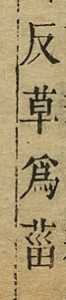反草為菑
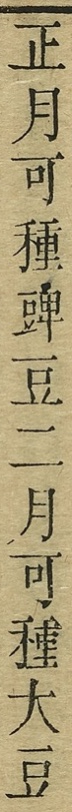正月可種豍豆二月可種大豆
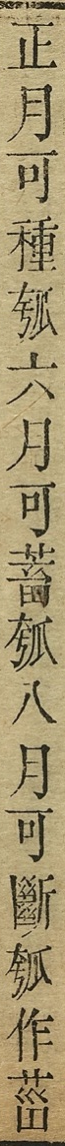正月可種瓠六月可蓄瓠八月可斷瓠作菑
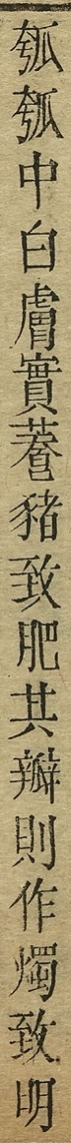瓠瓠中白膚實蒼豬致肥其瓣則作燭致明
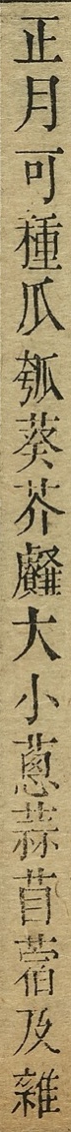正月可種瓜瓠葵芥䪥大小蔥蒜苜蓿及雜
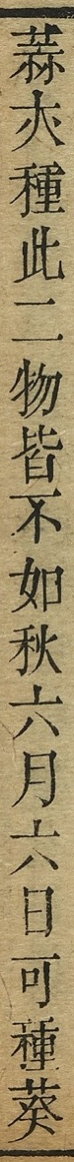蒜亦種此二物皆不如秋六月六日可種葵
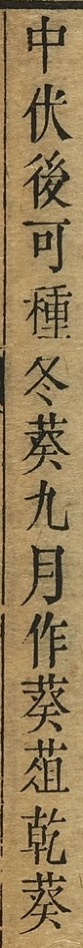中伏後可種冬葵九月作葵葅乾葵
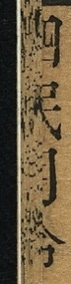四民月令
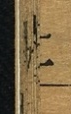二
